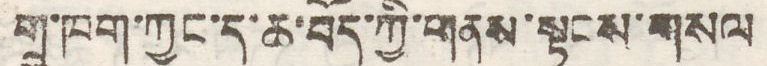གྲུ་ཁག་ཀྱང་ད་ཆ་བོད་ཀྱི་གནས་སྟངས་གསལ
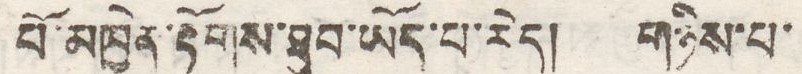པོ་མཁྱེན་རྟོགས་ཐུབ་ཡོད་པ་རེད། གཉིས་པ་
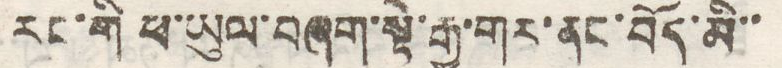རང་གི ཕ་ཡུལ་བཞག་སྟེ་རྒྱ་གར་ནང་བོད་མི་་
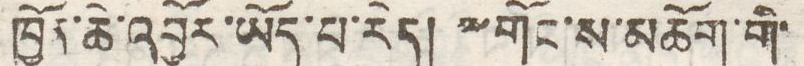ཁྱོན་ཆེ་འབྱོར་ཡོད་པ་རེད། ༸གོང་ས་མཆོག་གི་
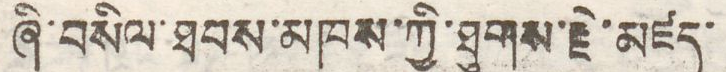ཞི་བསིལ་ཐབས་མཁས་ཀྱི་ཐུགས་རྗེ་མཛད་
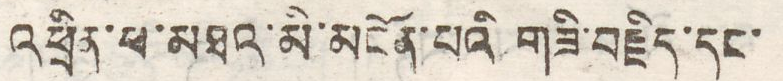འཕྲིན་པ་མཐའ་མི་མངོན་པའི གཟི་བརྗིད་དང་
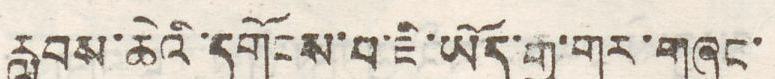རླབས་ཆེའི་དགོངས་བ་ཇི་ཡོད་རྒྱ་གར་གཞུང་
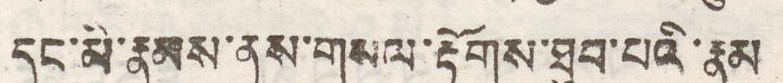དང་མི་རྣམས་ནས་གསལ་རྟོགས་ཐུབ་པའི་རྣམ
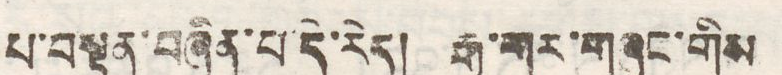པ་བསྟན་བཞིན་པ་དེ་རེད། རྒྱ་གར་གཞུང་གིས
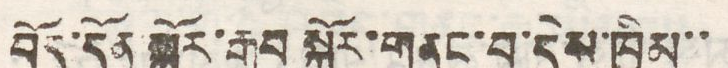བོད་དོན་སྐོར་རྒྱབ་སྐྱོར་གནང་བ་དེས་ཁྱིམ་་
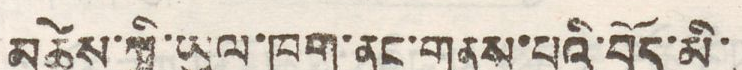མཚེས་ཀྱི་ཡུལ་ཁག་ནང་གནས་པའི་བོད་མི་
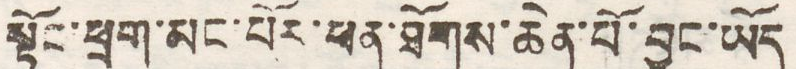སྟོང་ཕྲག་མང་པོར་ཕན་ཐོགས་ཆེན་པོ་བྱུང་ཡོད
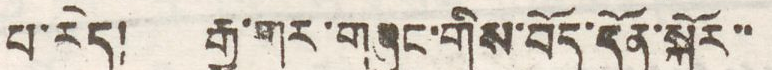པ་རེད། རྒྱ་གར་གཞུང་གིས་བོད་དོན་སྐོར་་
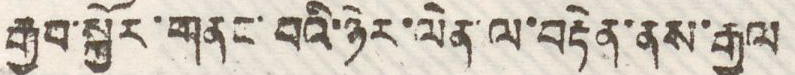རྒྱབ་སྐྱོར་གནང་བའི་ཉེར་ལེན་པ་བརྟེན་ནས་རྒྱལ
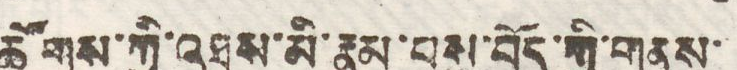ཚོགས་ཀྱི་འཐུས་མི་རྣམྤས་བོད་ཀྱི་གནས་
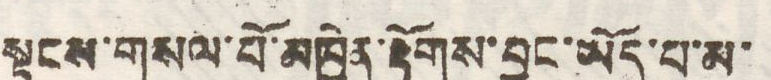སྟངས་གསལ་པོ་མཁྱེན་རྟོགས་བྱུང་ཡོད་པ་མ་
